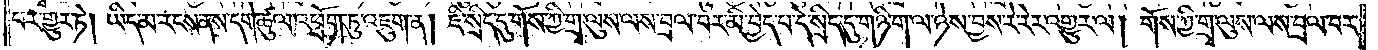པར་གྱུར་ཏེ། ཡིད་མ་རངས་ནས་དགེ་ཚུལ་འཕྲོག་ཏུ་འཇུག་ན། ཇི་སྲིད་དུ་གོས་ཀྱི་གྲྭ་ལུས་ལས་བྲལ་བར་མི་བྱེད་པ་དེ་སྲིད་དུ་གཉི་ག་ལ་ཉེས་བྱས་རེ་རེར་འགྱུར་ལ། གོས་ཀྱི་གྲྭ་ལུས་ལས་བྲལ་བར་
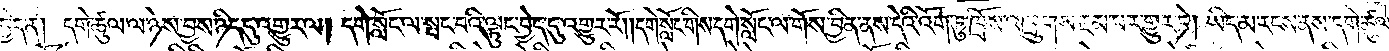བྱེད་ན། དགེ་ཚུལ་ལ་ཉེས་བྱས་ཉིད་དུ་འགྱུར་ལ། དགེ་སློང་ལ་སྤང་བའི་ལྟུང་བྱེད་དུ་འགྱུར་རོ། །དགེ་སློང་གིས་དགེ་སློང་ལ་གོས་བྱིན་ནས་དེའི་འོག་ཏུ་ཁྲོས་འཁྲུགས་རྔམ་པར་གྱུར་ཏེ། ཡིད་མ་རངས་ནས་དགེ་ཚུལ་
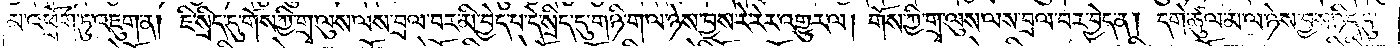མ་འཕྲོག་ཏུ་འཇུག་ན། ཇི་སྲིད་དུ་གོས་ཀྱི་གྲྭ་ལུས་ལས་བྲལ་བར་མི་བྱེད་པ་དེ་སྲིད་དུ་གཉི་ག་ལ་ཉས་བྱས་རེ་རེར་འགྱུར་ལ། གོས་ཀྱི་གྲྭ་ལུས་ལས་བྲལ་བར་བྱེད་ན། དགེ་ཚུལ་མ་ལ་ཉེས་བྱས་ཉིད་དུ་
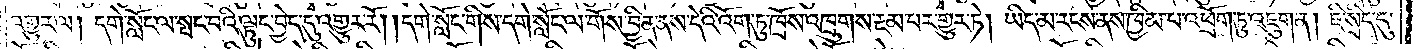འགྱུར་ལ། དགེ་སློང་ལ་སྤང་བའི་ལྟུང་བྱེད་དུ་འགྱུར་རོ། །དགེ་སློང་གིས་དགེ་སློང་ལ་གོས་བྱིན་ནས་དེའི་འོག་ཏུ་ཁྲོས་འཁྲུགས་རྔམ་པར་གྱུར་ཏེ། ཡིད་མ་རངས་ནས་ཁྱིམ་པ་འཕྲོག་ཏུ་འཇུག་ན། ཇི་སྲིད་དུ་
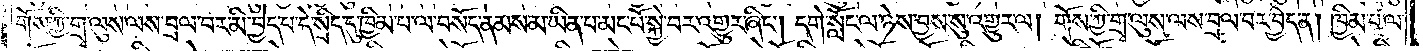གོས་ཀྱི་གྲྭ་ལུས་ལས་བྲལ་བར་མི་བྱེད་པ་དེ་སྲིད་དུ་ཁྱིམ་པ་ལ་བསོད་ནམས་མ་ཡིན་པ་མང་པོ་སྐྱེ་བར་འགྱུར་ཞིང༌། དགེ་སློང་ལ་ཉེས་བྱས་སུ་འགྱུར་ལ། གོས་ཀྱི་གྲྭ་ལུས་ལས་བྲལ་བར་བྱེད་ན། ཁྱིམ་པ་ལ་
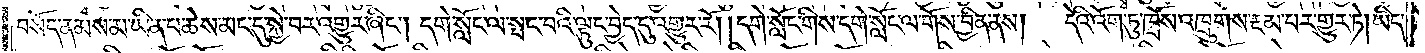བསོད་ནམས་མ་ཡིན་པ་ཆེས་མང་དུ་སྐྱེ་བར་འགྱུར་ཞིང༌། དགེ་སློང་ལ་སྤང་བའི་ལྟུང་བྱེད་དུ་འགྱུར་རོ། །དགེ་སློང་གིས་དགེ་སློང་ལ་གོས་བྱིན་ནས། དེའི་འོག་ཏུ་ཁྲོས་འཁྲུགས་རྔམ་པར་གྱུར་ཏེ། ཡིད་
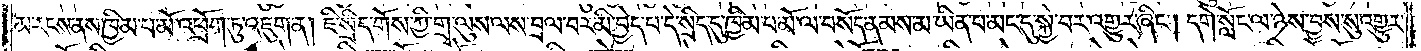མ་རངས་ནས་ཁྱིམ་པ་མོ་འཕྲོག་ཏུ་འཇུག་ན། ཇི་སྲིད་གོས་ཀྱི་གྲྭ་ལུས་ལས་བྲལ་བར་མི་བྱེད་པ་དེ་སྲིད་དུ་ཁྱིམ་པ་མོ་ལ་བསོད་ནམས་མ་ཡིན་པ་མང་དུ་སྐྱེ་བར་འགྱུར་ཞིང༌། དགེ་སློང་ལ་ཉེས་བྱས་སུ་འགྱུར་
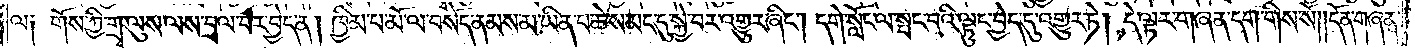ལ༑ གོས་ཀྱི་གྲྭ་ལུས་ལས་བྲལ་བར་བྱེད་ན། ཁྱིམ་པ་མོ་ལ་བསོད་ནམས་མ་ཡིན་པ་ཆེས་མང་དུ་སྐྱེ་བར་འགྱུར་ཞིང༌། དགེ་སློང་ལ་སྤང་བའི་ལྟུང་བྱེད་དུ་འགྱུར་ཏེ། དེ་ལྟར་གཞན་དག་གིས་སོ། །དོན་གཞན་
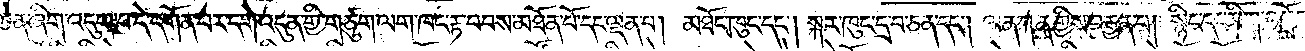ཅན་ཞིག་འདུག་པ་དེ་དགོན་པར་དགེ་འདུན་གྱི་གཙུག་ལག་ཁང་རྟ་བབས་མཐོན་པོ་དང་ལྡན་པ། མཐོང་ཁུང་དང༌། སྐར་ཁུང་དྲ་བ་ཅན་དང༌། ལན་ཀན་གྱིས་བརྒྱན་པ། སྙིང་དང་མིག་འཕྲོག་པར་བྱེད་
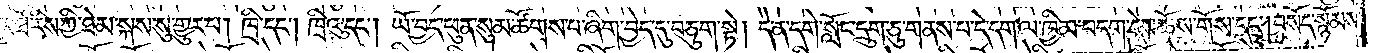མཐོ་རིས་ཀྱི་ཐེམ་སྐས་སུ་གྱུར་པ། ཁྲི་དང༌། ཁྲིའུ་དང༌། ཡོ་བྱད་ཕུན་སུམ་ཚོགས་པ་ཞིག་བྱེད་དུ་བཅུག་སྟེ། དེ་ན་དགེ་སློང་དྲུག་ཅུ་གནས་པ་དེ་དག་ལ་ཁྱིམ་བདག་དེས་ཆོས་གོས་དང༌། བསོད་སྙོམས་
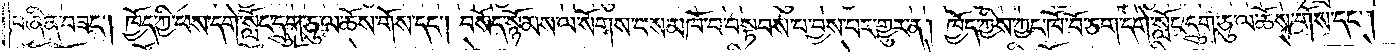བཞིན་བཟང༌། ཁྱོད་ཀྱི་ཕས་དགེ་སློང་དྲུག་ཅུ་ལ་ཆོས་གོས་དང༌། བསོད་སྙོམས་ལ་སོགས་པས་མཁོ་བ་བསྟབས་པ་བྱས་པར་གྱུར་ན། ཁྱོད་ཀྱིས་ཀྱང་ཁོ་བོ་ཅག་དགེ་སློང་དྲུག་ཅུ་ལ་ཆོས་གོས་དང༌།
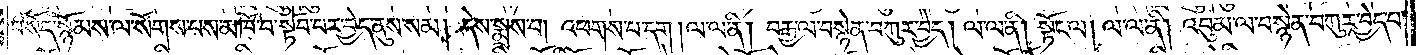བསོད་སྙོམས་ལ་སོགས་པས་མཁོ་བ་སྟོབ་པར་བྱེད་ནུས་སམ། དེས་སྨྲས་པ། འཕགས་པ་དག། ལ་ལ་ནི། བརྒྱ་ལ་བསྙེན་བཀུར་བྱེད། ལ་ལ་ནི། སྟོང་ལ། ལ་ལ་ནི། འབུམ་ལ་བསྙེན་བཀུར་བྱེད་པ་
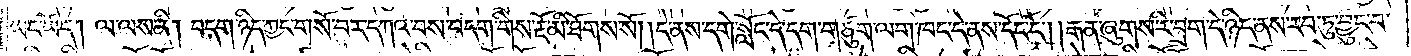ཡང་ཡོད། ལ་ལས་ནི། བདག་ཉིད་ཀྱང་གསོ་བར་དཀའ་བས་བདག་གིས་རྔོ་མི་ཐོགས་སོ། །དེ་ནས་དགེ་སློང་དེ་དག་གཙུག་ལག་ཁང་དེ་ནས་དོང་ངོ༌། །རྒན་ཞུགས་རི་བྲག་དེ་ཉིད་ནས་རབ་ཏུ་བྱུང་བ་
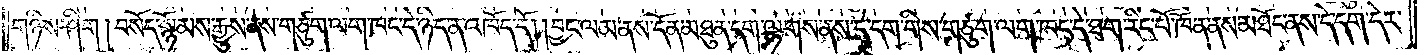གཉིས་ཤིག། བསོད་སྙོམས་རྒྱུས་ནས་གཙུག་ལག་ཁང་དེ་ཉིད་ན་འཁོད་དོ། །བྱང་ལམ་ནས་དོན་མཐུན་དག་ལྷགས་ནས་དེ་དག་གིས་གཙུག་ལག་ཁང་དེ་ཐག་རིང་པོ་ཁོ་ན་ནས་མཐོང་ནས་དེ་དག་དེར་
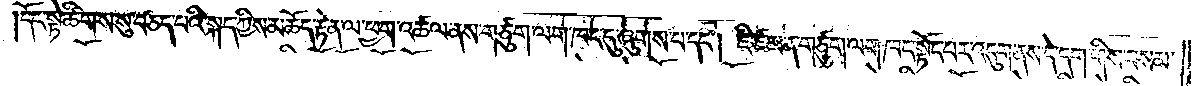དོང་སྟེ་ཚིགས་སུ་བཅད་པའི་སྐད་ཀྱིས་མཆོད་རྟེན་ལ་ཕྱག་འཚལ་ནས་གཙུག་ལག་ཁང་དུ་ཞུགས་པ་དང༌། ཇི་ཙམ་ན་གཙུག་ལག་ཁང་སྟོན་པར་འདུག་ནས་དེ་དག་གིས་བསམ་
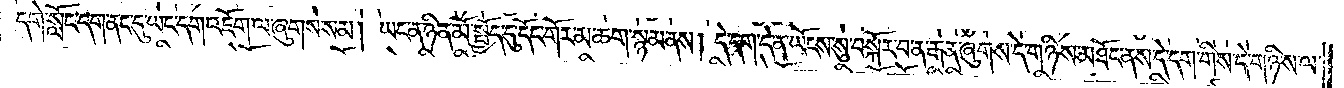དགེ་སློང་དག་ནང་དུ་ཡང་དག་འཇོག་ལ་ཞུགས་སམ། ཡང་ན་ཉིན་མོ་སྤྱོད་དུ་དོང་གོར་མ་ཆག་སྙམ་ནས། དེ་དག་དེ་ན་ཡོངས་སུ་བསྐོར་བ་ན་རྒན་ཞུགས་དེ་གཉིས་མཐོང་ནས་དེ་དག་གིས་དེ་གཉིས་ལ་
